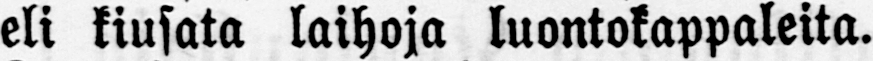eli kiusata laihoja luontokappaleita.
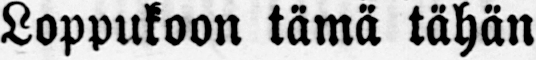Loppukoon tämä tähän
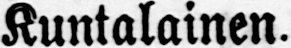Kuntalainen.
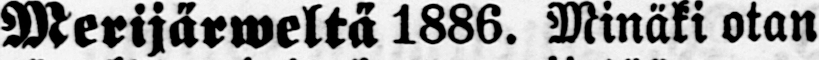Merijärweltä 1886. Minäki otan
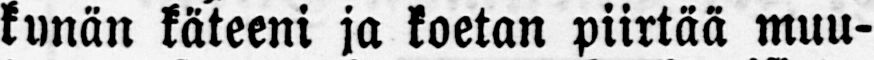kynän käteeni ja koetan piirtää muu-
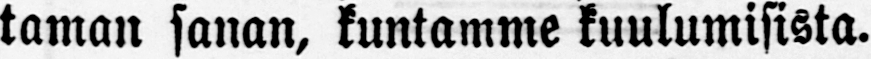taman sanan, kuntamme kuulumisista.
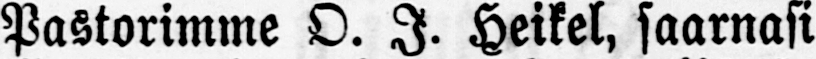Pastorimme O. J. Heikel, saarnasi
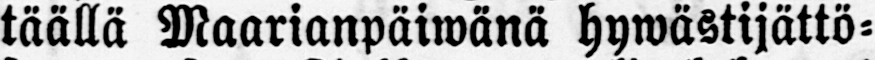täällä Maarianpäiwänä hywästijättö-
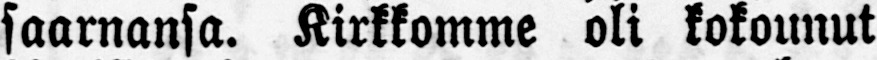saarnansa. Kirkkomme oli kokounut
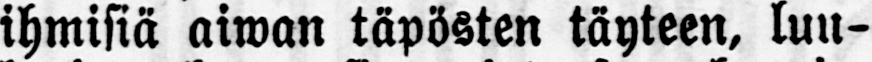ihmisiä aiwan täpösten täyteen, luu-
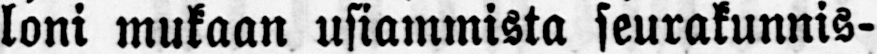loni mukaan usiammista seurakunnis-
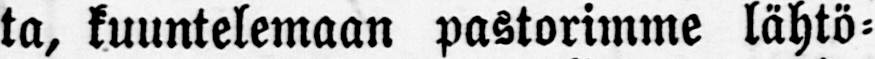ta, kuuntelemaan pastorimme lähtö-
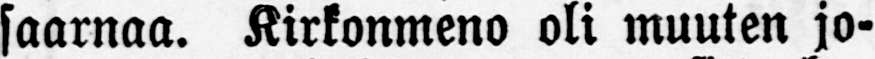saarnaa. Kirkonmeno oli muuten jo-
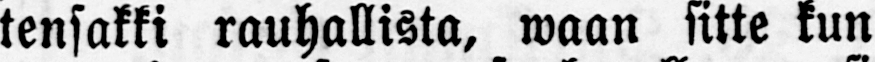tensakki rauhallista, waan sitte kun
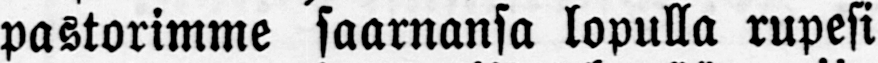pastorimme saarnansa lopulla rupesi
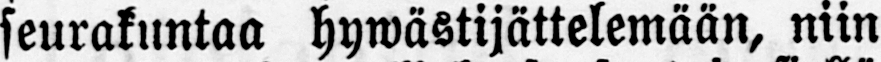seurakuntaa hywästijättelemään, niin
